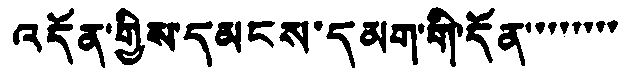འདོན་གྱིས་དམངས་དམག་གི་དོན་་་་་་་་
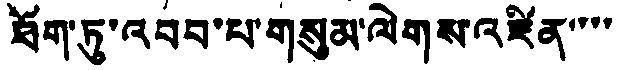ཐོག་ཏུ་འབབ་པ་གསུམ་ལེགས་འཛིན་་་་
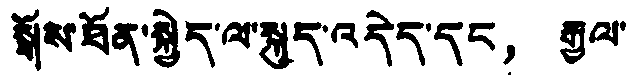སྒོས་ཐོན་སྐྱེད་ལ་སྐུད་འདེད་དང， རྒྱལ་
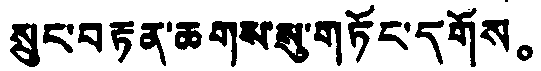སྲུང་བརྟན་ཆགས་སུ་གཏོང་དགོས。
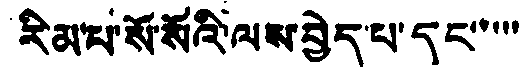རིམ་པ་སོ་སོའི་ལས་བྱེད་པ་དང་་་་་
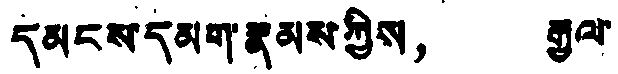དམངས་དམག་རྣམས་ཀྱིས， རྒྱལ་
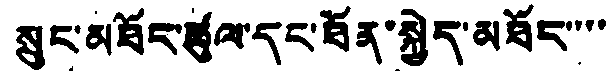སྲུང་མཐོང་ཚུལ་དང་ཐོན་སྐྱེད་མཐོང་་་་་
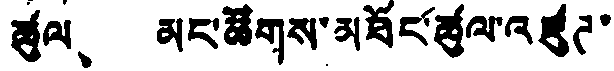ཚུལ、 མང་ཚོགས་མཐོང་ཚུལ་འཛུཊ་
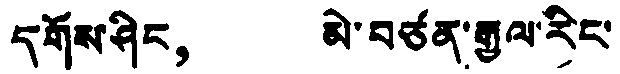དགོས་ཤིང， མེ་བཙན་རྒྱལ་རིང་
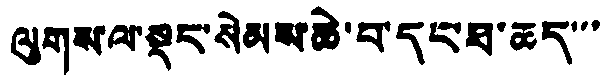ལུགས་ལ་སྡུང་སེམས་ཆེ་བ་དང་ཐ་ཆད་་་
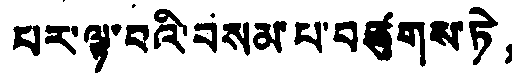པར་ལྟ་བའི་བསམ་པ་བཙུགས་ཏེ，
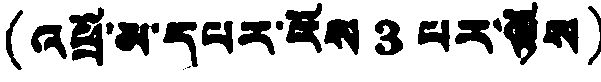(འཕྲོ་མ་དཔར་ངོས 3 པར་ལྟོས)
